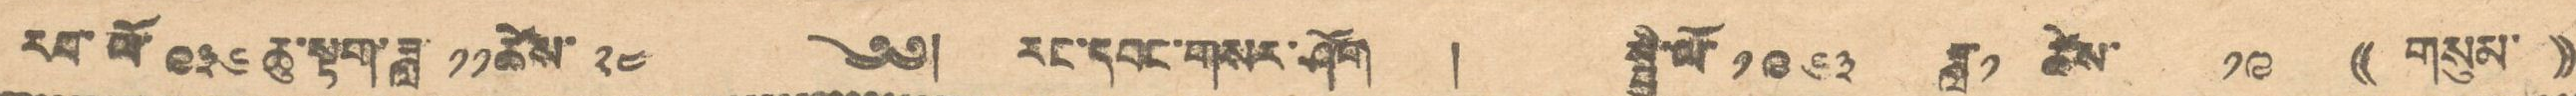རབ་ལོ་ ༩༣༦ ཆུ་སྟག་ཟླ་ ༡༡ ཚེས་ ༢༤ ༄༅། རང་དབང་གསར་ཤོག ། སྤྱི་ལོ་ ༡༩༦༣ ཟླ་ ༡ ཚེས་ ༡༩ (( གསུམ་ ))
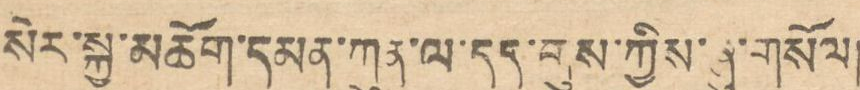སེར་སྐྱ་མཆོག་དམན་ཀུན་ལ་དད་གུས་ཀྱིས་ཞུ་གསོལ།
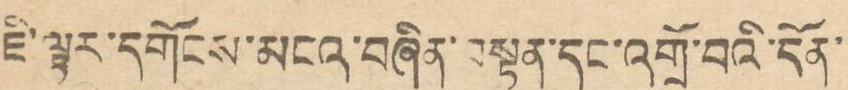ཇི་ལྟར་དགོངས་མངའ་བཞིན་བསྟན་དང་འགྲོ་བའི་དོན་
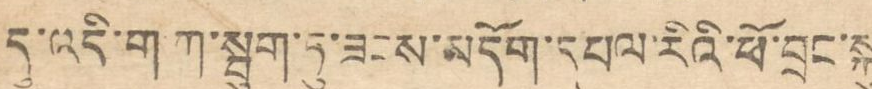དུ་འདི་ག་ཀ་སྦུག་ཏུ་ཟངས་མདོག་དཔལ་རིའི་ཕོ་བྲང་སྐུ
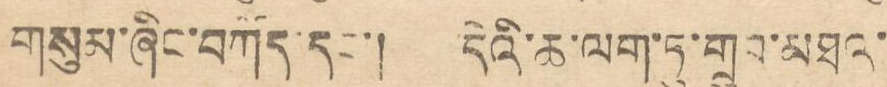གསུམ་ཞིང་བཀོད་དང་། དེའི་ཆ་ལག་ཏུ་གྲུབ་མཐའ་
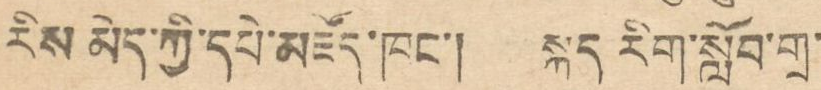རིས མེད་ཀྱི་དཔེ་མཛོད་ཁང་། སྐད རིག་སློབ་གྲ་
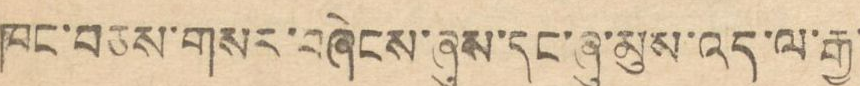ཁང་བཅས་གསར་བཞེངས་ཞུས་དང་ཞུ་མུས་འདི་ལ་རྒྱ་
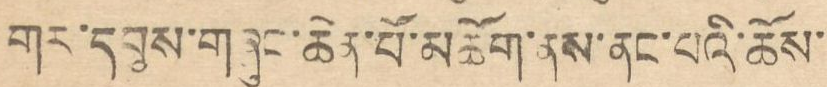གར་དབུས་གཞུང་ཆེན་པོ་མཆོག་ནས་ནང་པའི་ཆོས་
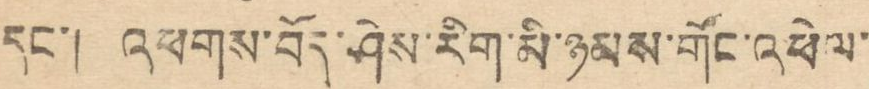དང་། འཕགས་བོད་ཤེས་རིག་མི་ཉམས་གོང་འཕེལ་
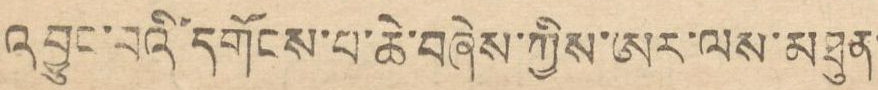འབྱུང་བའི་དགོངས་པ་ཆེ་བཞེས་ཀྱིས་ཨར་ལས་མཐུན་
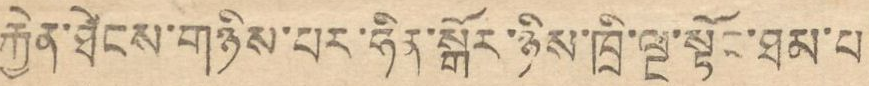རྐྱེན་ཐེངས་གཉིས་པར་ཧིན་སྒོར་ཉིས་ཁྲི་ལྔ་སྟོང་ཐམ་པ་
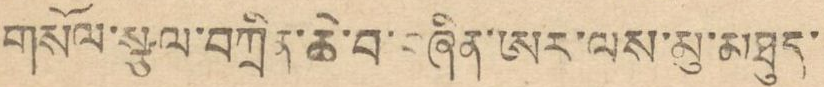གསོལ་སྩལ་བཀྲིན་ཆེ་བ་བཞིན་ཨར་ལས་མུ་མཐུད་
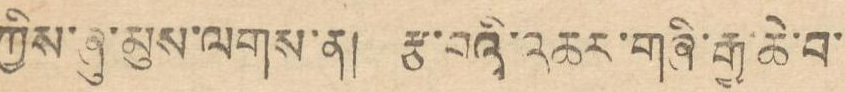ཀྱིས་ཞུ་མུས་ལགས་ན། རྩ་བའི་འཆར་གཞི་རྒྱ་ཆེ་བ་
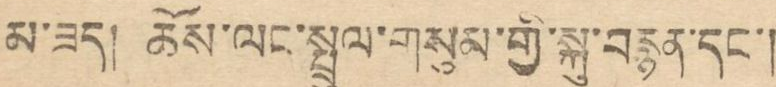མ་ཟད། ཆོས་ལང་སྤྲུལ་གསུམ་གྱི་སྐུ་བརྙན་དང་།
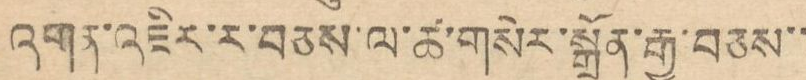འགན་འཇིར་ར་བཅས་ལ་ཚ་གསེར་སྒྲོན་རྒྱུ་བཅས་་
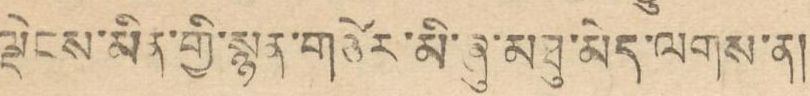ལྡེངས་མིན་གྱི་སྙན་གཙེར་མི་ཞུ་མཐུ་མེད་ལགས་ན།
